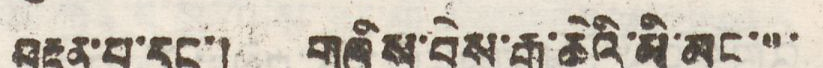བརྟན་པ་དང་། གཞིས་བྱེས་རྒྱ་ཆེའི་མི་མང་་་་
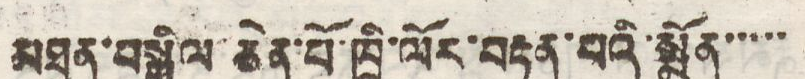མཐུན་བསྒྲིལ་ཅེན་པོ་ཁྲི་ལོར་བརྟན་པའི་སྨོན་་་་་
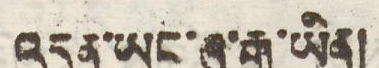འདུན་ཡང་ཞུ་རྒྱུ་ཡིན།
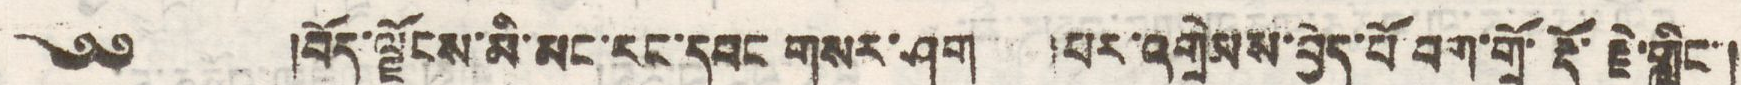༄༅ །བོད་ལྗོངས་མི་མང་རང་དབང་གསར་ཤོག །པར་འགྲེམས་བྱེད་པོ་བག་གྲོ་རྡོ་རྗེ་གླིང་།
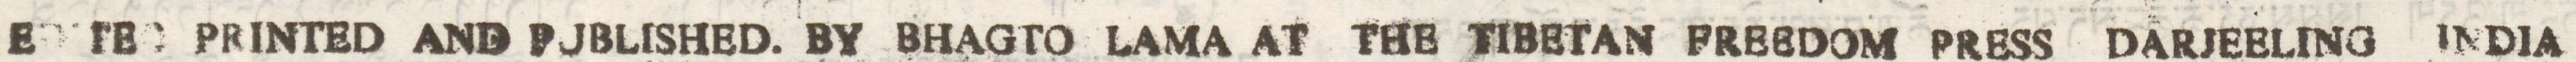EDITED PRINTED AND PUBLISHED BY BHAGTO LAMA AT THE TIBETAN FREEDOM PRESS DARJEELING INDIA
